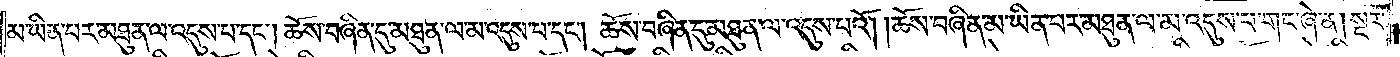མ་ཡིན་པར་མཐུན་ལ་འདུས་པ་དང༌། ཆོས་བཞིན་དུ་མཐུན་ལ་མ་འདུས་པ་དང༌། ཆོས་བཞིན་དུ་མཐུན་ལ་འདུས་པའོ། །ཆོས་བཞིན་མ་ཡིན་པར་མཐུན་ལ་མ་འདུས་པ་གང་ཞེ་ན། སྔར་
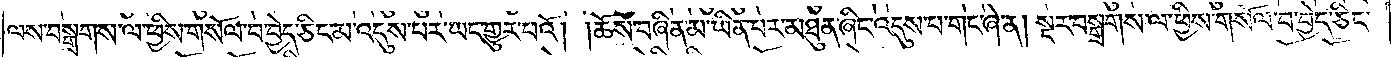ལས་བསྒྲགས་ལ་ཕྱིས་གསོལ་བ་བྱེད་ཅིང་མ་འདུས་པར་ཡང་གྱུར་པའོ། །ཆོས་བཞིན་མ་ཡིན་པར་མཐུན་ཞིང་འདུས་པ་གང་ཞེ་ན། སྔར་བསྒྲགས་ལ་ཕྱིས་གསོལ་བ་བྱེད་ཅིང་
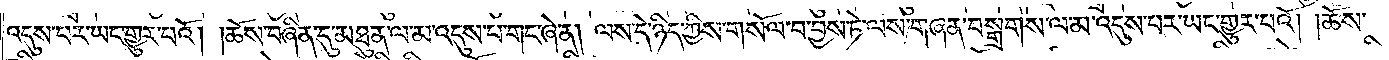འདུས་པར་ཡང་གྱུར་པའོ། །ཆོས་བཞིན་དུ་མཐུན་ལ་མ་འདུས་པ་གང་ཞེ་ན། ལས་དེ་ཉིད་ཀྱིས་གསོལ་བ་བྱས་ཏེ་ལས་གཞན་བསྒྲགས་ལ་མ་འདུས་པར་ཡང་གྱུར་པའོ། །ཆོས་
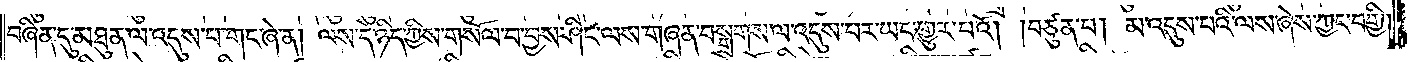བཞིན་དུ་མཐུན་ལ་འདུས་པ་གང་ཞེ་ན། ལས་དེ་ཉིད་ཀྱིས་གསོལ་བ་བྱས་ཤིང་ལས་གཞན་བསྒྲགས་ལ་འདུས་པར་ཡང་གྱུར་པའོ། །བཙུན་པ། མ་འདུས་པའི་ལས་ཞེས་ཀྱང་བགྱི།
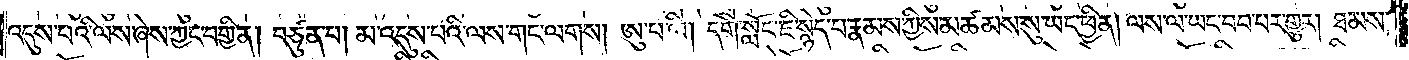འདུས་པའི་ལས་ཞེས་ཀྱང་བགྱི་ན། བཙུན་པ། མ་འདུས་པའི་ལས་གང་ལགས། ཨུ་པ་ལི། དགེ་སློང་ཇི་སྙེད་པ་རྣམས་ཀྱིས་མཚམས་སུ་ཡང་ཕྱིན། ལས་ལ་ཡང་བབ་པར་གྱུར། ཐམས་
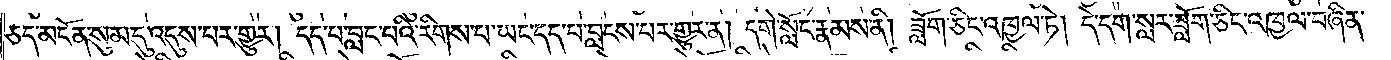ཅད་མངོན་སུམ་དུ་འདུས་པར་གྱུར། དད་པ་བླང་བའི་རིགས་པ་ཡང་དད་པ་བླངས་པར་གྱུར་ན། དགེ་སློང་རྣམས་ནི། ཟློག་ཅིང་འཁྱལ་ཏེ། དེ་དག་སླར་ཟློག་ཅིང་འཁྱལ་བཞིན་
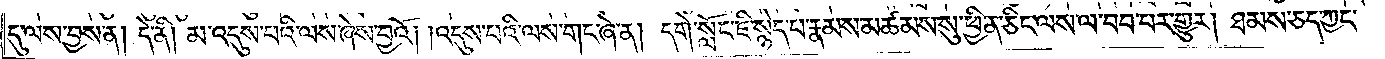དུ་ལས་བྱས་ན། དེ་ནི། མ་འདུས་པའི་ལས་ཞེས་བྱའོ། །འདུས་པའི་ལས་གང་ཞེ་ན། དགེ་སློང་ཇི་སྙེད་པ་རྣམས་མཚམས་སུ་ཕྱིན་ཅིང་ལས་ལ་བབ་པར་གྱུར། ཐམས་ཅད་ཀྱང་
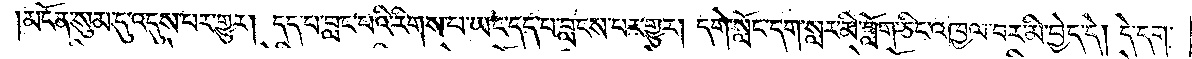མངོན་སུམ་དུ་འདུས་པར་གྱུར། དད་པ་བླང་བའི་རིགས་པ་ཡང་དད་པ་བླངས་པར་གྱུར། དགེ་སློང་དག་སླར་མི་ཟློག་ཅིང་འཁྱལ་བར་མི་བྱེད་དེ། དེ་དག་
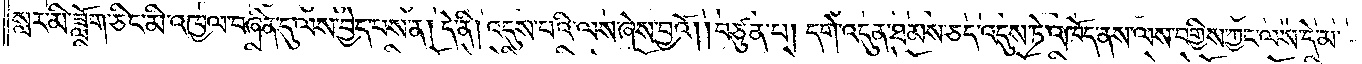སླར་མི་ཟློག་ཅིང་མི་འཁྱལ་བཞིན་དུ་ལས་བྱེད་པས་ན། དེ་ནི། འདུས་པའི་ལས་ཞེས་བྱའོ། །བཙུན་པ། དགེ་འདུན་ཐམས་ཅད་འདུས་ཏེ་འཁོད་ནས་ལས་བགྱིས་ཀྱང་ལས་དེ་མ་
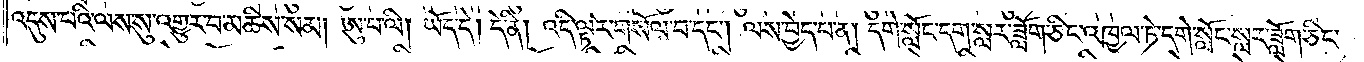འདུས་པའི་ལས་སུ་འགྱུར་བ་མཆིས་སམ། ཨུ་པ་ལི། ཡོད་དེ། དེ་ནི། འདི་ལྟར་གསོལ་བ་དང༌། ལས་བྱེད་པ་ན། དགེ་སློང་དག་སླར་ཟློག་ཅིང་འཁྱལ་ཏེ་དགེ་སློང་སླར་ཟློག་ཅིང་
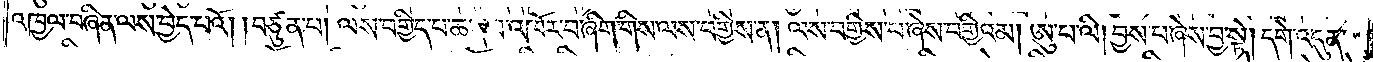འཁྱལ་བཞིན་ལས་བྱེད་པའོ། །བཙུན་པ། ལས་བགྱིད་པ་ཆད་པ་འཁོར་བ་ཞིག་གིས་ལས་བགྱིས་ན། ལས་བགྱིས་པ་ཞེས་བགྱིའམ། ཨུ་པ་ལི། བྱས་པ་ཞེས་བྱ་སྟེ། དགེ་འདུན་
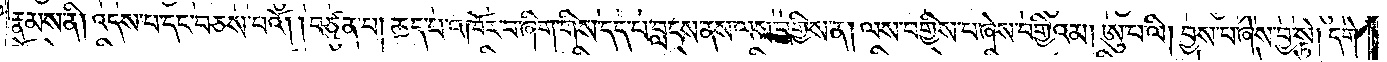རྣམས་ནི། འདས་པ་དང་བཅས་པའོ། །བཙུན་པ། ཆད་པ་འཁོར་བ་ཞིག་གིས་དད་པ་བླངས་ནས་ལས་བགྱིས་ན། ལས་བགྱིས་པ་ཞེས་བགྱིའམ། ཨུ་པ་ལི། བྱས་པ་ཞེས་བྱ་སྟེ། དགེ་
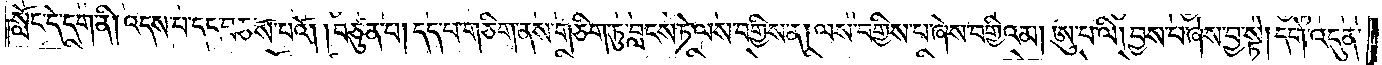སློང་དེ་དག་ནི། འདས་པ་དང་བཅས་པའོ། །བཙུན་པ། དད་པ་གཅིག་ནས་གཅིག་ཏུ་བླངས་ཏེ་ལས་བགྱིས་ན། ལས་བགྱིས་པ་ཞེས་བགྱིའམ། ཨུ་པ་ལི། བྱས་པ་ཞེས་བྱ་སྟེ། དགེ་འདུན་
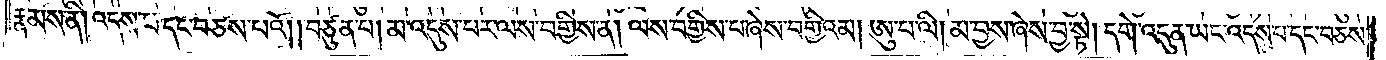རྣམས་ནི། འདས་པ་དང་བཅས་པའོ། །བཙུན་པ། མ་འདུས་པར་ལས་བགྱིས་ན། ལས་བགྱིས་པ་ཞེས་བགྱིའམ། ཨུ་པ་ལི། མ་བྱས་ཞེས་བྱ་སྟེ། དགེ་འདུན་ཡང་འདས་པ་དང་བཅས་
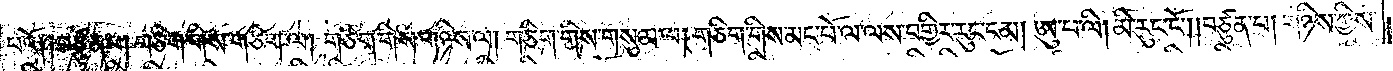པའོ༑ ༑བཙུན་པ། གཅིག་གིས་གཅིག་ལ། གཅིག་གིས་གཉིས་ལ། གཅིག་གིས་གསུམ་ལ། གཅིག་གིས་མང་པོ་ལ་ལས་བགྱིར་རུང་ངམ། ཨུ་པ་ལི། མི་རུང་ངོ༌། །བཙུན་པ། གཉིས་ཀྱིས་
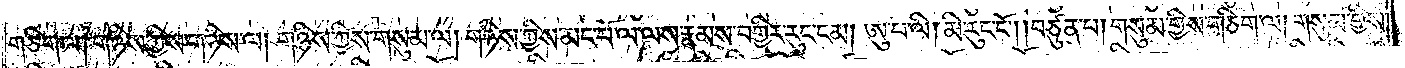གཅིག་ལ། གཉིས་ཀྱིས་གཉིས་ལ། གཉིས་ཀྱིས་གསུམ་ལ། གཉིས་ཀྱིས་མང་པོ་ལ་ལས་རྣམས་བགྱིར་རུང་ངམ། ཨུ་པ་ལི། མི་རུང་ངོ༌། །བཙུན་པ། གསུམ་གྱིས་གཅིག་ལ། གསུམ་གྱིས་
